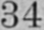34
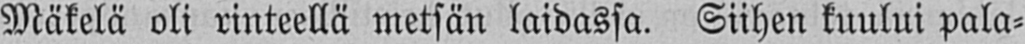Mäkelä oli rinteellä metsän laidassa. Siihen kuului pala-
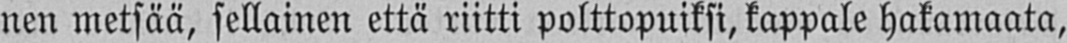nen metsää, sellainen että riitti polttopuiksi, kappale hakamaata,
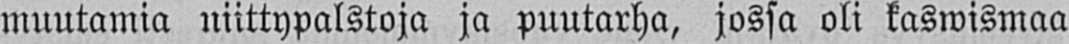muutamia niittypalstoja ja puutarha, jossa oli kaswismaa
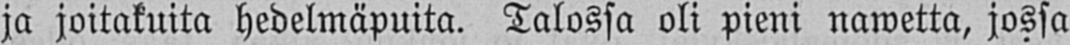ja joitakuita hedelmäpuita. Talossa oli pieni nawetta, jossa
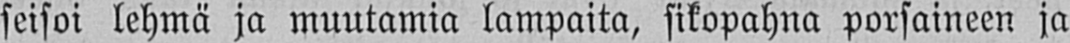seisoi lehmä ja muutamia lampaita, sikopahna porsaineen ja
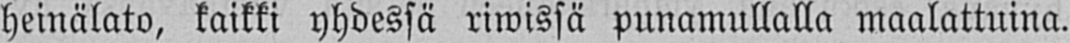heinälato, kaikki yhdessä riwissä punamullalla maalattuina.
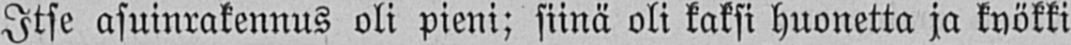Itse asuinrakennus oli pieni; siinä oli kaksi huonetta ja kyökki
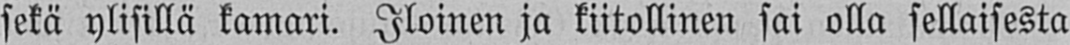sekä ylisillä kamari. Iloinen ja kiitollinen sai olla sellaisesta
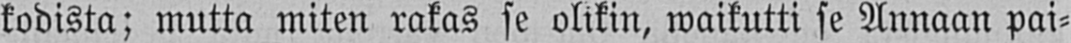kodista; mutta miten rakas se olikin, waikutti se Annaan pai-
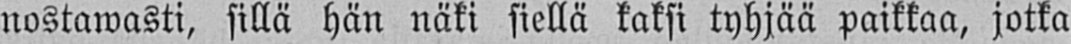nostawasti, sillä hän näki siellä kaksi tyhjää paikkaa, jotka
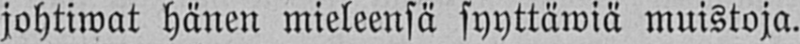johtiwat hänen mieleensä syyttäwiä muistoja.
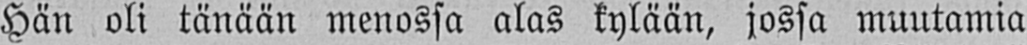Hän oli tänään menossa alas kylään, jossa muutamia
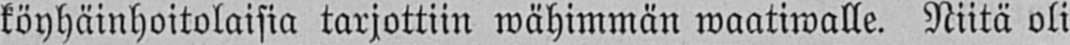köyhäinhoitolaisia tarjottiin wähimmän waatiwalle. Niitä oli
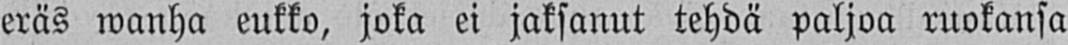eräs wanha eukko, joka ei jaksanut tehdä paljoa ruokansa
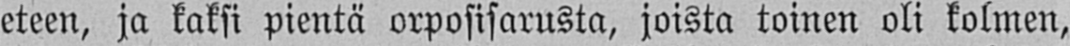eteen, ja kaksi pientä orposisarusta, joista toinen oli kolmen,
